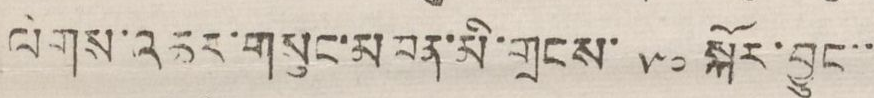ལེགས་འཆར་གསུང་མཁན་མི་གྲངས་ ༥༠ སྐོར་བྱུང་་
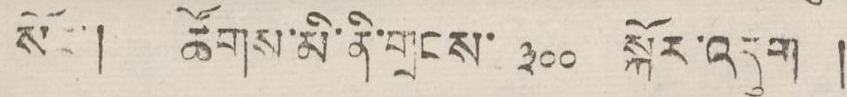སོང་། ཚོགས་མི་ནི་གྲངས་ ༣༠༠ སྐོར་འདུག །
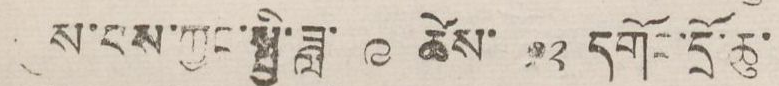དུས་པས་ཀྱང་སྤྱི་ཟླ་ ༩ ཚེས་ ༡༢ དགོང་དྲི་ཆུ་
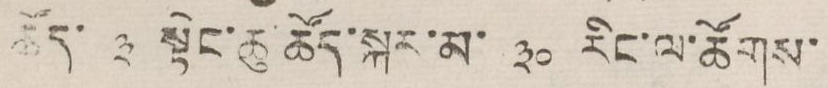ཚོད་ ༣ སྟེང་ཆུ་ཚོད་སྐར་མ་ ༣༠ རིང་ལ་ཚོགས་
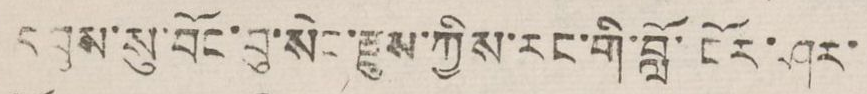དབུས་སུ་བོང་བུ་སེང་རྫུས་ཀྱིས་རང་གི་བློ་ངོར་ཤར་
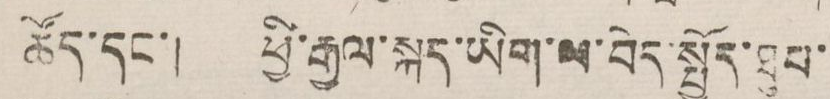ཚོད་དང་། ཕྱི་རྒྱལ་སྐད་ཡིག་བདེ་སྤྱོད་ཐུབ་
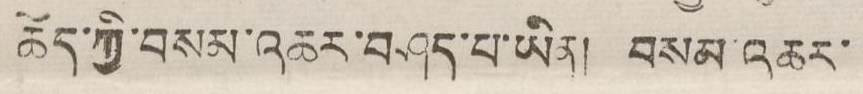ཆོད་ཀྱི་བསམ་འཆར་བཤད་པ་ཡིན། བསམ འཆར་
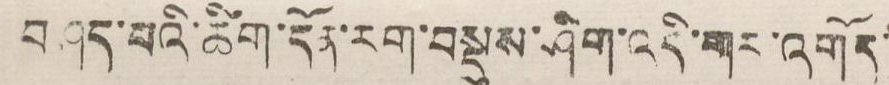བཤད་པའི་ཚོག་དོན་རག་བསྡུས་ཤིག་འདི་གར་འགོད་
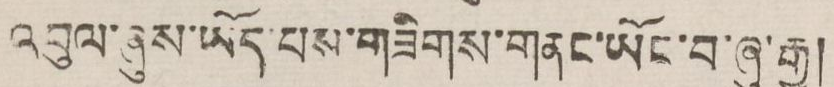འབུལ་ཞུས་ཡོད་པས་གཟིགས་གནང་ཡོང་བ་ཞུ་རྒྱུ།
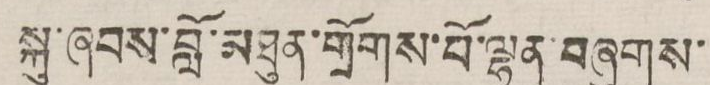སྐུ་ཞབས་བློ་མཐུན་གྲོགས་པོ་ལྷན་བཞུགས་
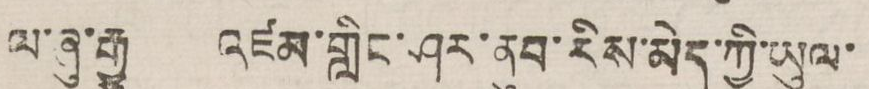ལ་ཞུ་རྒྱུ འཛམ་གླིང་ཤར་ནུབ་རིས་མེད་ཀྱི་ཡུལ་
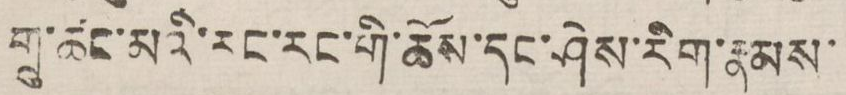གྲུ་ཚང་མའི་རང་རང་གི་ཆོས་དང་ཤེས་རིག་རྣམས་
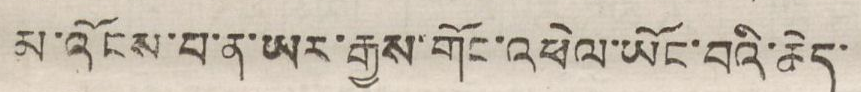མ་འོངས་པ་ན་ཡར་རྒྱས་གོང་འཕེལ་ཡོང་བའི་ཆེད་
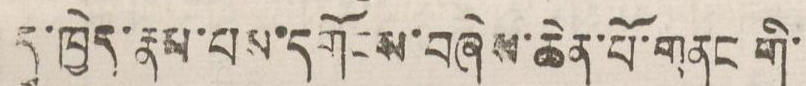དུ་ཁྱེད་རྣམ་པས་དགོངས་བཞེས་ཆེན་པོ་གནང གི་
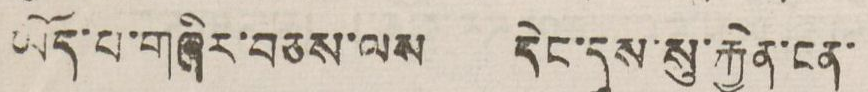ཡོད་པ་གཞིར་བཅས་ལས དེང་དུས་སུ་རྐྱེན་ངན་
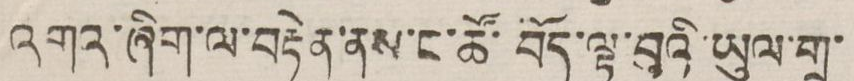འགའ་ཞིག་ལ་བརྟེན་ནས་ང་ཚོ་བོད་ལྟ་བུའི་ཡུལ་གྲུ་
